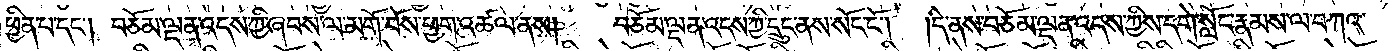ཕྱིན་པ་དང༌། བཅོམ་ལྡན་འདས་ཀྱི་ཞབས་ལ་མགོ་བོས་ཕྱག་འཚལ་ནས། བཅོམ་ལྡན་འདས་ཀྱི་དྲུང་ནས་སོང་ངོ༌། །དེ་ནས་བཅོམ་ལྡན་འདས་ཀྱིས་དགེ་སློང་རྣམས་ལ་བཀའ་
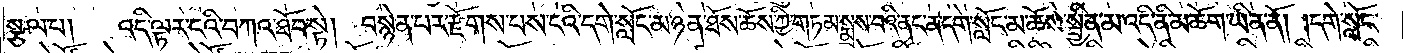སྩལ་པ། འདི་ལྟར་ངའི་བཀའ་ཐོབ་སྟེ། བསྙེན་པར་རྫོགས་པས་ངའི་དགེ་སློང་མ་ཉན་ཐོས་ཆོས་ཀྱི་གཏམ་སྨྲས་བའི་ནང་ན་དགེ་སློང་མ་ཆོས་སྦྱིན་མ་འདི་ནི་མཆོག་ཡིན་ནོ། །དགེ་སློང་
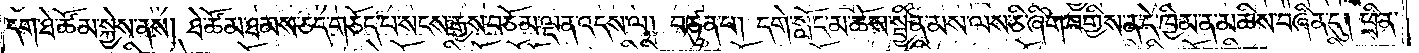དག་ཐེ་ཚོམ་སྐྱེས་ནས། ཐེ་ཚོམ་ཐམས་ཅད་གཅོད་པ་སངས་རྒྱས་བཅོམ་ལྡན་འདས་ལ། བཙུན་པ། དགེ་སློང་མ་ཆོས་སྦྱིན་མས་ལས་ཅི་ཞིག་བགྱིས་ན་དེ་ཁྱིམ་ན་མཆིས་བཞིན་དུ། ཕྲིན་
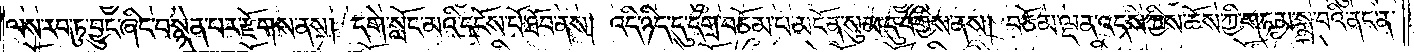ལས་རབ་ཏུ་བྱུང་ཞིང་བསྙེན་པར་རྫོགས་ནས། དགེ་སློང་མའི་དངོས་པོ་ཐོབ་ནས། འདི་ཉིད་དུ་དགྲ་བཅོམ་པ་མངོན་སུམ་དུ་བགྱིས་ནས། བཅོམ་ལྡན་འདས་ཀྱིས་ཆོས་ཀྱི་གཏམ་སྨྲ་བའི་ནང་ན་
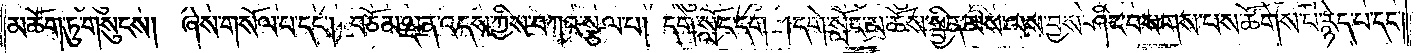མཆོག་ཏུ་གསུངས། ཞེས་གསོལ་པ་དང༌། བཅོམ་ལྡན་འདས་ཀྱིས་བཀའ་སྩལ་པ། དགེ་སློང་དག །དགེ་སློང་མ་ཆོས་སྦྱིན་མས་ལས་བྱས་ཤིང་བསགས་པས་ཚོགས་པ་རྙེད་པ་དང༌།
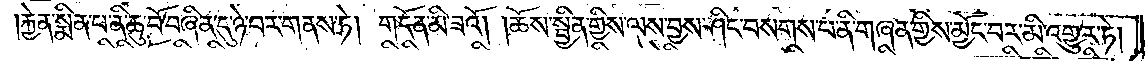རྐྱེན་སྨིན་པ་ནི་ཆུ་བོ་བཞིན་དུ་ཉེ་བར་གནས་ཏེ། གདོན་མི་ཟའོ། །ཆོས་སྦྱིན་གྱིས་ལས་བྱས་ཤིང་བསགས་པ་ནི་གཞན་གྱིས་མྱོང་བར་མི་འགྱུར་ཏེ།
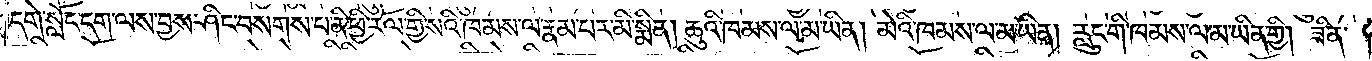དགེ་སློང་དག་ལས་བྱས་ཤིང་བསགས་པ་ནི་ཕྱི་རོལ་གྱི་སའི་ཁམས་ལ་རྣམ་པར་མི་སྨིན། ཆུའི་ཁམས་ལ་མ་ཡིན། མེའི་ཁམས་ལ་མ་ཡིན། རླུང་གི་ཁམས་ལ་མ་ཡིན་གྱི། ཟིན་
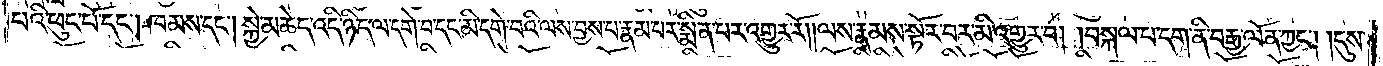པའི་ཕུང་པོ་དང༌། ཁམས་དང༌། སྐྱེ་མཆེད་འདི་ཉིད་ལ་དགེ་བ་དང་མི་དགེ་བའི་ལས་བྱས་པ་རྣམ་པར་སྨིན་པར་འགྱུར་རོ། །ལས་རྣམས་སྟོར་བར་མི་འགྱུར་བ། །བསྐལ་པ་དག་ནི་བརྒྱ་ལོན་ཀྱང༌། དུས་
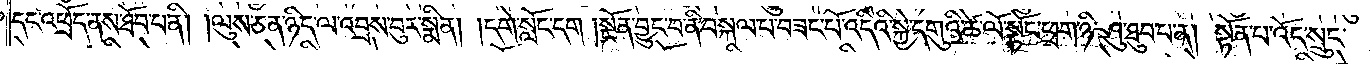དང་འཕྲོད་ནས་ཐོབ་པ་ནི། །ལུས་ཅན་ཉིད་ལ་འབྲས་བུར་སྨིན། །དགེ་སློང་དག །སྔོན་བྱུང་བ་ནི་བསྐལ་པ་བཟང་པོ་འདིའི་སྐྱེ་དགུའི་ཚེ་ལོ་སྟོང་ཕྲག་ཉི་ཤུ་ཐུབ་པ་ན། སྟོན་པ་འོད་སྲུང་
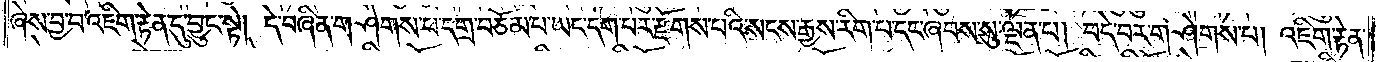ཞེས་བྱ་བ་འཇིག་རྟེན་དུ་བྱུང་སྟེ། དེ་བཞིན་གཤེགས་པ་དགྲ་བཅོམ་པ་ཡང་དག་པར་རྫོགས་པའི་སངས་རྒྱས་རིག་པ་དང་ཞབས་སུ་ལྡན་པ། བདེ་བར་གཤེགས་པ། འཇིག་རྟེན་
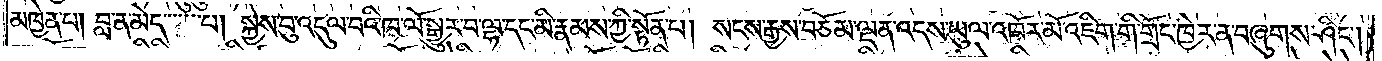མཁྱེན་པ། བླ་ན་མེད་པ། སྐྱེས་བུ་འདུལ་བའི་ཁ་ལོ་སྒྱུར་བ་ལྷ་དང་མི་རྣམས་ཀྱི་སྟོན་པ། སངས་རྒྱས་བཅོམ་ལྡན་འདས་ཡུལ་འཁོར་མོ་འཇིག་གི་གྲོང་ཁྱེར་ན་བཞུགས་ཤིང༌།
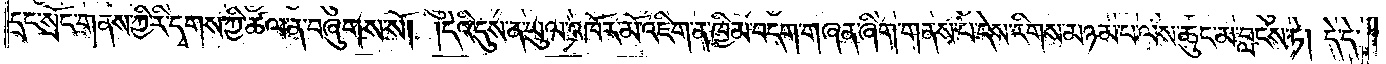དྲང་སྲོང་གནས་ཀྱི་རི་དྭགས་ཀྱི་ཚལ་ན་བཞུགས་སོ། །དེའི་དུས་ན་ཡུལ་འཁོར་མོ་འཇིག་ན་ཁྱིམ་བདག་གཞན་ཞིག་གནས་པ་དེས་རིགས་མཉམ་པ་ལས་ཆུང་མ་བླངས་ཏེ། དེ་དེ་
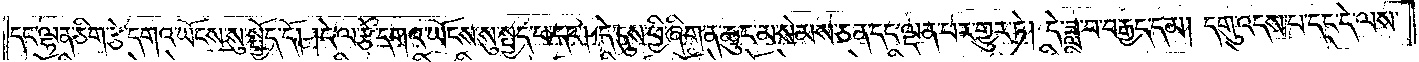དང་ལྷན་ཅིག་རྩེ་དགའ་ཡོངས་སུ་སྤྱོད་དོ། །དེ་ལ་རྩེ་དགའ་ཡོངས་སུ་སྤྱད་པ་དང༌། དེ་དུས་ཕྱི་ཞིག་ན་ཆུང་མ་སེམས་ཅན་དང་ལྡན་པར་གྱུར་ཏེ། དེ་ཟླ་བ་བརྒྱད་དམ། དགུ་འདས་པ་དང་དེ་ལས་
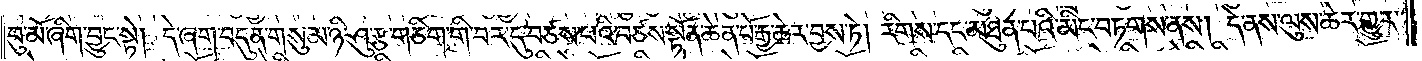བུ་མོ་ཞིག་བྱུང་སྟེ། དེ་ཞག་བདུན་གསུམ་ཉི་ཤུ་རྩ་གཅིག་གི་བར་དུ་བཙས་པའི་བཙས་སྟོན་ཆེན་པོ་རྒྱ་ཆེར་བྱས་ཏེ། རིགས་དང་མཐུན་པའི་མིང་བཏགས་ནས། དེ་ནས་ལུས་ཆེར་གྱུར་
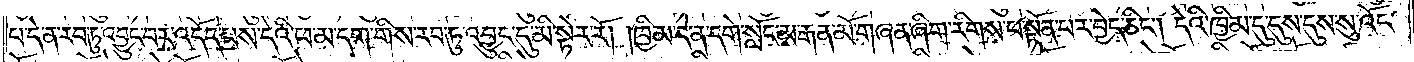པ་དེ་ན་རབ་ཏུ་འབྱུང་བར་འདོད་པས་དེའི་ཕ་མ་དག་གིས་རབ་ཏུ་འབྱུང་དུ་མི་སྟེར་རོ། །ཁྱིམ་དེ་ན་དགེ་སློང་མ་རྒན་མོ་གཞན་ཞིག་རིགས་པ་སྟོན་པར་བྱེད་ཅིང༌། དེའི་ཁྱིམ་དུ་དུས་སུ་འོང་
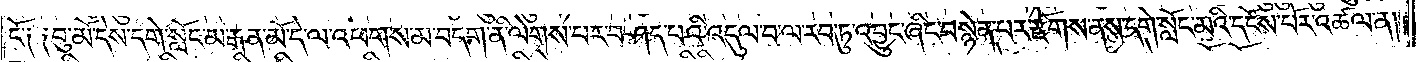ངོ༑ ༑བུ་མོ་དེས་དགེ་སློང་མ་རྒན་མོ་དེ་ལ་འཕགས་མ་བདག་ནི་ལེགས་པར་བཤད་པའི་འདུལ་བ་ལ་རབ་ཏུ་འབྱུང་ཞིང་བསྙེན་པར་རྫོགས་ནས་དགེ་སློང་མའི་དངོས་པོར་འཚལ་ན།
